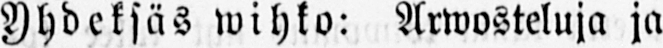Yhdeksäs wihko: Arwosteluja ja
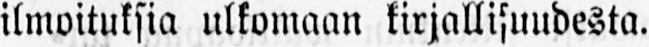ilmoituksia ulkomaan kirjallisuudesta.
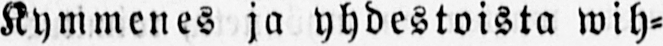Kymmenes ja yhdestoista wih-
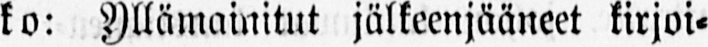ko: Yllämainitut jälkeenjääneet kirjoi-
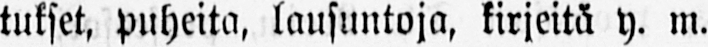tukset, puheita, lausuntoja, kirjeitä y. m.
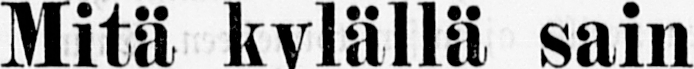Mitä kylällä sain
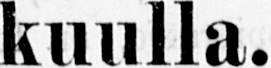kuulla.
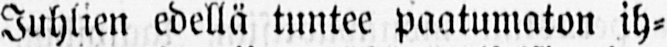Juhlien edellä tuntee paatumaton ih-
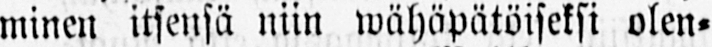minen itsensä niin wähäpätöiseksi olen-
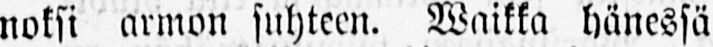noksi armon suhteen. Waikka hänessä
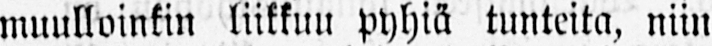muulloinkin liikkuu pyhiä tunteita, niin
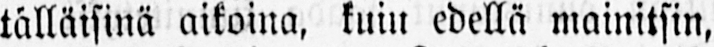tälläisinä aikoina, kuin edellä mainitsin,
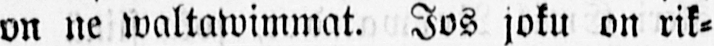on ne waltawimmat. Jos joku on rik-
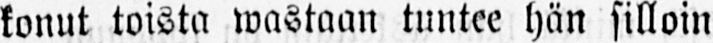konut toista wastaan tuntee hän silloin
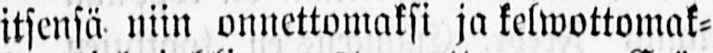itsensä niin onnettomaksi ja kelwottomak-
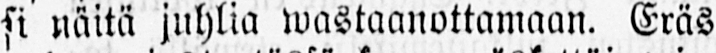si näitä juhlia wastaanottamaan. Eräs
